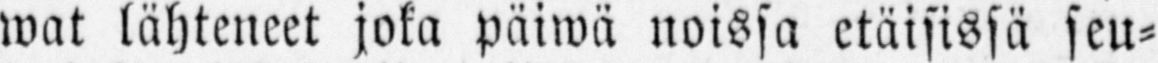wat lähteneet joka päiwä noissa etäisissä seu-
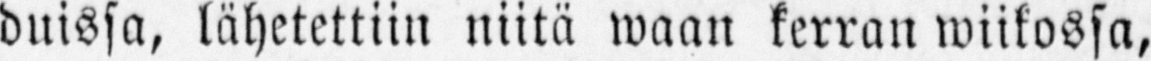duissa, lähetettiin niitä waan kerran wiikossa,
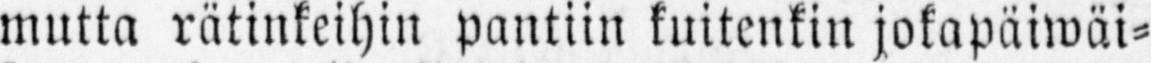mutta rätinkeihin pantiin kuitenkin jokapäiwäi-
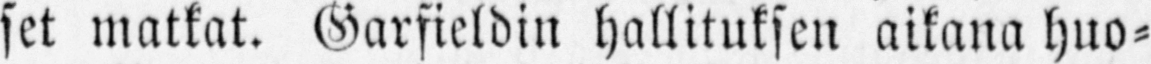set matkat. Garfieldin hallituksen aikana huo-
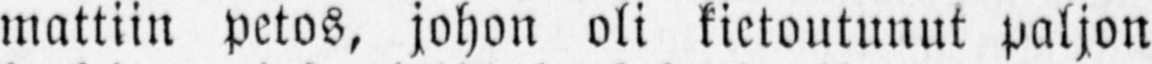mattiin petos, johon oli kietoutunut paljon
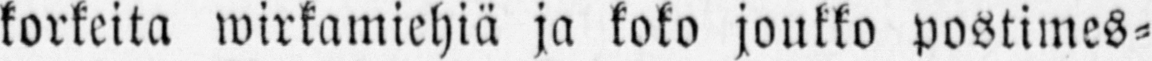korkeita wirkamiehiä ja koko joukko postimes-
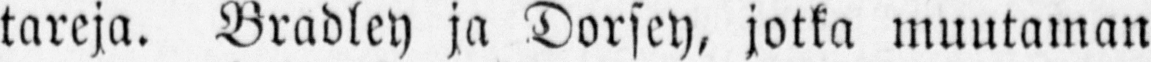tareja. Bradley ja Dorsey, jotka muutaman
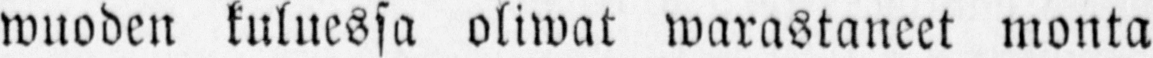wuoden kuluessa oliwat warastaneet monta
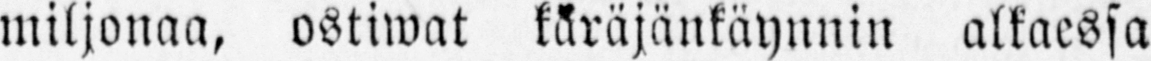miljonaa, ostiwat käräjänkäynnin alkaessa
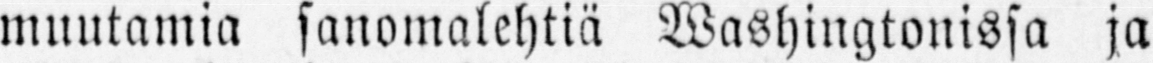muutamia sanomalehtiä Washingtonissa ja
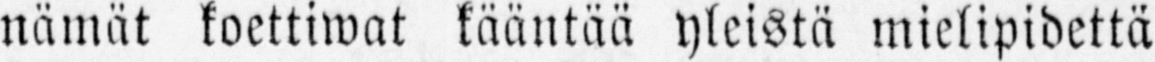nämät koettiwat kääntää yleistä mielipidettä
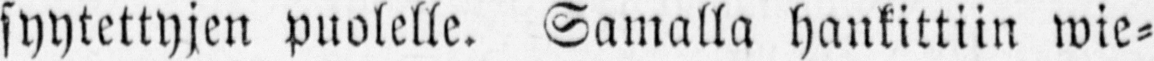syytettyjen puolelle. Samalla hankittiin wie-
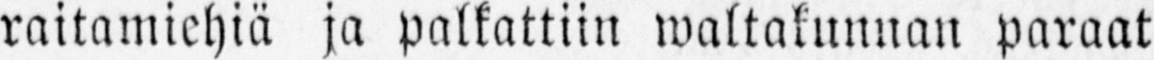raitamiehiä ja palkattiin waltakunnan paraat
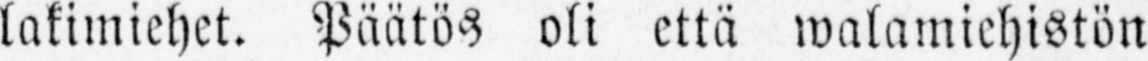lakimiehet. Päätös oli että walamiehistön
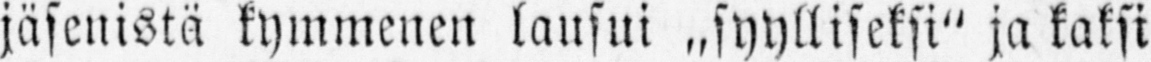jäsenistä kymmenen lausui ˶syylliseksi" ja kaksi
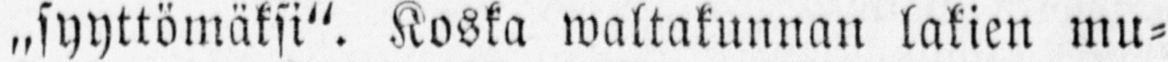˶syyttömäksi". Koska waltakunnan lakien mu-
